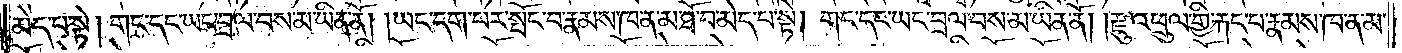མེད་པ་སྟེ། གང་དང་ཡང་བྲལ་བས་མ་ཡིན་ནོ། །ཡང་དག་པར་སྤོང་བ་རྣམས་ཁ་ན་མ་ཐོ་བ་མེད་པ་སྟེ། གང་དང་ཡང་བྲལ་བས་མ་ཡིན་ནོ། །རྫུ་འཕྲུལ་གྱི་རྐང་པ་རྣམས་ཁ་ན་མ་
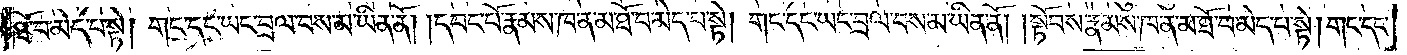ཐོ་བ་མེད་པ་སྟེ། གང་དང་ཡང་བྲལ་བས་མ་ཡིན་ནོ། །དབང་པོ་རྣམས་ཁ་ན་མ་ཐོ་བ་མེད་པ་སྟེ། གང་དང་ཡང་བྲལ་བས་མ་ཡིན་ནོ། །སྟོབས་རྣམས་ཁ་ན་མ་ཐོ་བ་མེད་པ་སྟེ། གང་དང་
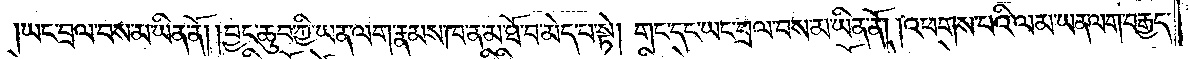ཡང་བྲལ་བས་མ་ཡིན་ནོ། །བྱང་ཆུབ་ཀྱི་ཡན་ལག་རྣམས་ཁ་ན་མ་ཐོ་བ་མེད་པ་སྟེ། གང་དང་ཡང་བྲལ་བས་མ་ཡིན་ནོ། །འཕགས་པའི་ལམ་ཡན་ལག་བརྒྱད་
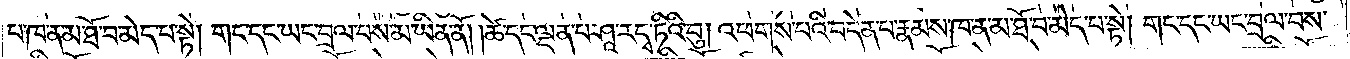པ་ཁ་ན་མ་ཐོ་བ་མེད་པ་སྟེ། གང་དང་ཡང་བྲལ་བས་མ་ཡིན་ནོ། །ཚེ་དང་ལྡན་པ་ཤཱ་ར་དྭ་ཏིའི་བུ། འཕགས་པའི་བདེན་པ་རྣམས་ཁ་ན་མ་ཐོ་བ་མེད་པ་སྟེ། གང་དང་ཡང་བྲལ་བས་
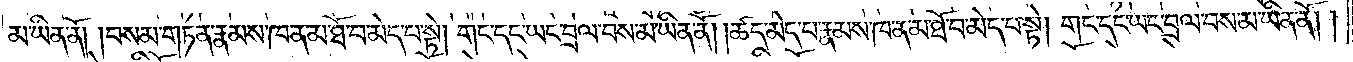མ་ཡིན་ནོ། །བསམ་གཏན་རྣམས་ཁ་ན་མ་ཐོ་བ་མེད་པ་སྟེ། གང་དང་ཡང་བྲལ་བས་མ་ཡིན་ནོ། །ཚད་མེད་པ་རྣམས་ཁ་ན་མ་ཐོ་བ་མེད་པ་སྟེ། གང་དང་ཡང་བྲལ་བས་མ་ཡིན་ནོ། །
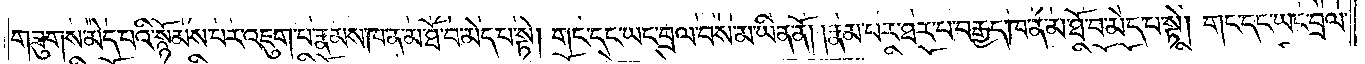གཟུགས་མེད་པའི་སྙོམས་པར་འཇུག་པ་རྣམས་ཁ་ན་མ་ཐོ་བ་མེད་པ་སྟེ། གང་དང་ཡང་བྲལ་བས་མ་ཡིན་ནོ། །རྣམ་པར་ཐར་པ་བརྒྱད་ཁ་ན་མ་ཐོ་བ་མེད་པ་སྟེ། གང་དང་ཡང་བྲལ་
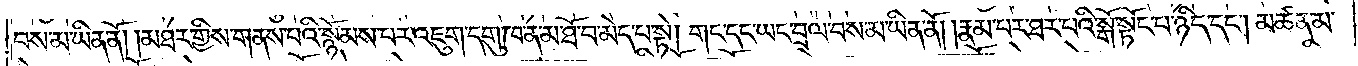བས་མ་ཡིན་ནོ། །མཐར་གྱིས་གནས་པའི་སྙོམས་པར་འཇུག་པ་དགུ་ཁ་ན་མ་ཐོ་བ་མེད་པ་སྟེ། གང་དང་ཡང་བྲལ་བས་མ་ཡིན་ནོ། རྣམ་པར་ཐར་པའི་སྒོ་སྟོང་པ་ཉིད་དང༌། མཚན་མ་
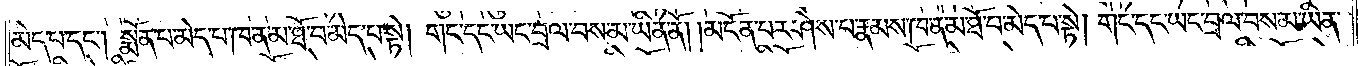མེད་པ་དང༌། སྨོན་པ་མེད་པ་ཁ་ན་མ་ཐོ་བ་མེད་པ་སྟེ། གང་དང་ཡང་བྲལ་བས་མ་ཡིན་ནོ། །མངོན་པར་ཤེས་པ་རྣམས་ཁ་ན་མ་ཐོ་བ་མེད་པ་སྟེ། གང་དང་ཡང་བྲལ་བས་མ་ཡིན་
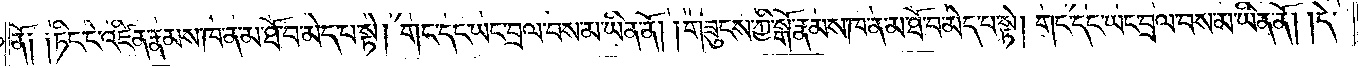ནོ། །ཏིང་ངེ་འཛིན་རྣམས་ཁ་ན་མ་ཐོ་བ་མེད་པ་སྟེ། གང་དང་ཡང་བྲལ་བས་མ་ཡིན་ནོ། །གཟུངས་ཀྱི་སྒོ་རྣམས་ཁ་ན་མ་ཐོ་བ་མེད་པ་སྟེ། གང་དང་ཡང་བྲལ་བས་མ་ཡིན་ནོ། །དེ་
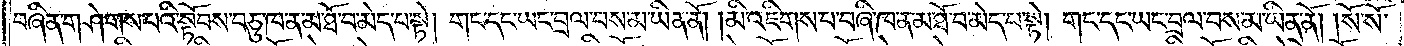བཞིན་གཤེགས་པའི་སྟོབས་བཅུ་ཁ་ན་མ་ཐོ་བ་མེད་པ་སྟེ། གང་དང་ཡང་བྲལ་བས་མ་ཡིན་ནོ། །མི་འཇིགས་པ་བཞི་ཁ་ན་མ་ཐོ་བ་མེད་པ་སྟེ། གང་དང་ཡང་བྲལ་བས་མ་ཡིན་ནོ། །སོ་སོ་
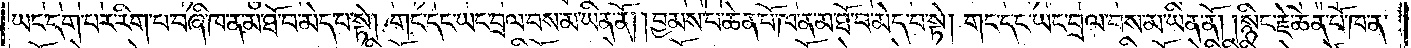ཡང་དག་པར་རིག་པ་བཞི་ཁ་ན་མ་ཐོ་བ་མེད་པ་སྟེ། གང་དང་ཡང་བྲལ་བས་མ་ཡིན་ནོ། །བྱམས་པ་ཆེན་པོ་ཁ་ན་མ་ཐོ་བ་མེད་པ་སྟེ། གང་དང་ཡང་བྲལ་བས་མ་ཡིན་ནོ། སྙིང་རྗེ་ཆེན་པོ་ཁ་ན་
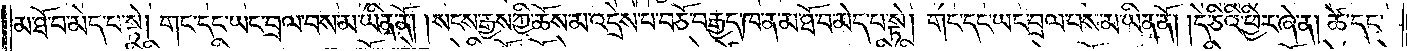མ་ཐོ་བ་མེད་པ་སྟེ། གང་དང་ཡང་བྲལ་བས་མ་ཡིན་ནོ། །སངས་རྒྱས་ཀྱི་ཆོས་མ་འདྲེས་པ་བཅོ་བརྒྱད་ཁ་ན་མ་ཐོ་བ་མེད་པ་སྟེ། གང་དང་ཡང་བྲལ་བས་མ་ཡིན་ནོ། །དེ་ཅིའི་ཕྱིར་ཞེ་ན། ཚེ་དང་
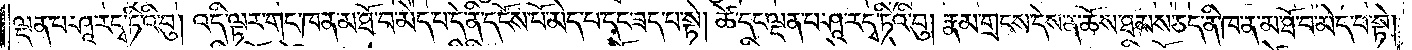ལྡན་པ་ཤཱ་ར་དྭ་ཏིའི་བུ། འདི་ལྟར་གང་ཁ་ན་མ་ཐོ་བ་མེད་པ་དེ་ནི་དངོས་པོ་མེད་པ་དང་ཟད་པ་སྟེ། ཚེ་དང་ལྡན་པ་ཤཱ་ར་དྭ་ཏིའི་བུ། རྣམ་གྲངས་དེས་ན་ཆོས་ཐམས་ཅད་ནི་ཁ་ན་མ་ཐོ་བ་མེད་པ་སྟེ།
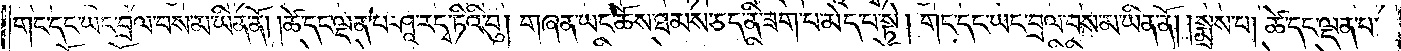གང་དང་ཡང་བྲལ་བས་མ་ཡིན་ནོ། །ཚེ་དང་ལྡན་པ་ཤཱ་ར་དྭ་ཏིའི་བུ། གཞན་ཡང་ཆོས་ཐམས་ཅད་ནི་ཟག་པ་མེད་པ་སྟེ། གང་དང་ཡང་བྲལ་བས་མ་ཡིན་ནོ། །སྨྲས་པ། ཚེ་དང་ལྡན་པ་
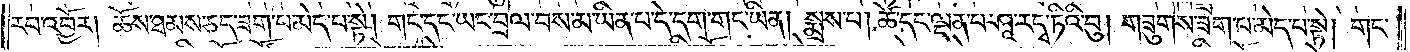རབ་འབྱོར། ཆོས་ཐམས་ཅད་ཟག་པ་མེད་པ་སྟེ། གང་དང་ཡང་བྲལ་བས་མ་ཡིན་པ་དེ་དག་གང་ཡིན། སྨྲས་པ། ཚེ་དང་ལྡན་པ་ཤཱ་ར་དྭ་ཏིའི་བུ། གཟུགས་ཟག་པ་མེད་པ་སྟེ། གང་
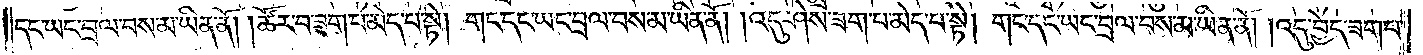དང་ཡང་བྲལ་བས་མ་ཡིན་ནོ། །ཚོར་བ་ཟག་པ་མེད་པ་སྟེ། གང་དང་ཡང་བྲལ་བས་མ་ཡིན་ནོ། །འདུ་ཤེས་ཟག་པ་མེད་པ་སྟེ། གང་དང་ཡང་བྲལ་བས་མ་ཡིན་ནོ། །འདུ་བྱེད་ཟག་པ་
